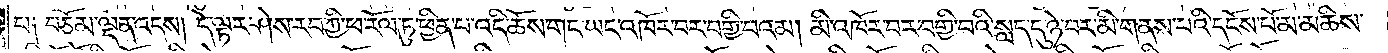པ༑ བཅོམ་ལྡན་འདས། དེ་ལྟར་ཤེས་རབ་ཀྱི་ཕ་རོལ་ཏུ་ཕྱིན་པ་འདི་ཆོས་གང་ཡང་འཁོར་བར་བགྱི་བའམ། མི་འཁོར་བར་བགྱི་བའི་སླད་དུ་ཉེ་བར་མི་གནས་པའི་དངོས་པོ་མ་མཆིས་
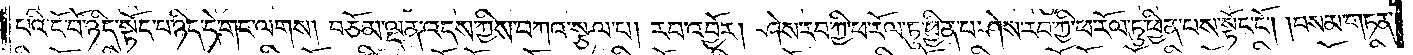པའི་ངོ་བོ་ཉིད་སྟོང་པ་ཉིད་དེ་གང་ལགས། བཅོམ་ལྡན་འདས་ཀྱིས་བཀའ་སྩལ་པ། རབ་འབྱོར། ཤེས་རབ་ཀྱི་ཕ་རོལ་ཏུ་ཕྱིན་པ་ཤེས་རབ་ཀྱི་ཕ་རོལ་ཏུ་ཕྱིན་པས་སྟོང་ངོ༌། །བསམ་གཏན་
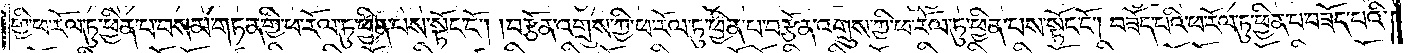གྱི་ཕ་རོལ་ཏུ་ཕྱིན་པ་བསམ་གཏན་གྱི་ཕ་རོལ་ཏུ་ཕྱིན་པས་སྟོང་ངོ༌། །བརྩོན་འགྲུས་ཀྱི་ཕ་རོལ་ཏུ་ཕྱིན་པ་བརྩོན་འགྲུས་ཀྱི་ཕ་རོལ་ཏུ་ཕྱིན་པས་སྟོང་ངོ༌། བཟོད་པའི་ཕ་རོལ་ཏུ་ཕྱིན་པ་བཟོད་པའི་
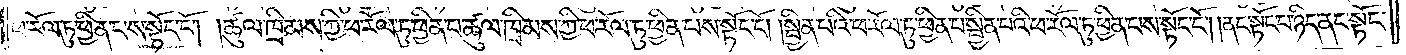ཕ་རོལ་ཏུ་ཕྱིན་པས་སྟོང་ངོ༌། །ཚུལ་ཁྲིམས་ཀྱི་ཕ་རོལ་ཏུ་ཕྱིན་པ་ཚུལ་ཁྲིམས་ཀྱི་ཕ་རོལ་ཏུ་ཕྱིན་པས་སྟོང་ངོ༌། །སྦྱིན་པའི་ཕ་རོལ་ཏུ་ཕྱིན་པ་སྦྱིན་པའི་ཕ་རོལ་ཏུ་ཕྱིན་པས་སྟོང་ངོ༌། །ནང་སྟོང་པ་ཉིད་ནང་སྟོང་
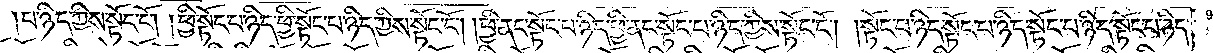པ་ཉིད་ཀྱིས་སྟོང་ངོ༌། །ཕྱི་སྟོང་པ་ཉིད་ཕྱི་སྟོང་པ་ཉིད་ཀྱིས་སྟོང་ངོ༌། །ཕྱི་ནང་སྟོང་པ་ཉིད་ཕྱི་ནང་སྟོང་པ་ཉིད་ཀྱིས་སྟོང་ངོ༌། །སྟོང་པ་ཉིད་སྟོང་པ་ཉིད་སྟོང་པ་ཉིད་སྟོང་པ་ཉིད་
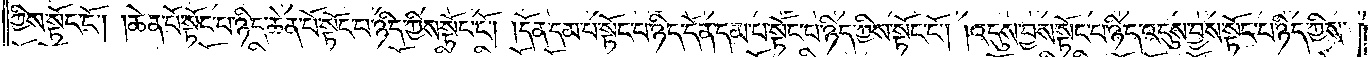ཀྱིས་སྟོང་ངོ༌། །ཆེན་པོ་སྟོང་པ་ཉིད་ཆེན་པོ་སྟོང་པ་ཉིད་ཀྱིས་སྟོང་ངོ༌། །དོན་དམ་པ་སྟོང་པ་ཉིད་དོན་དམ་པ་སྟོང་པ་ཉིད་ཀྱིས་སྟོང་ངོ༌། །འདུས་བྱས་སྟོང་པ་ཉིད་འདུས་བྱས་སྟོང་པ་ཉིད་ཀྱིས་
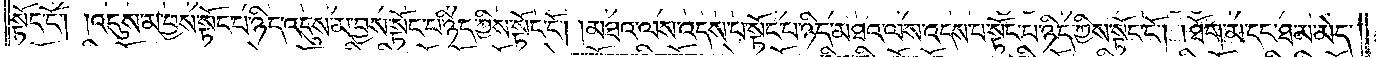སྟོང་ངོ༌། །འདུས་མ་བྱས་སྟོང་པ་ཉིད་འདུས་མ་བྱས་སྟོང་པ་ཉིད་ཀྱིས་སྟོང་ངོ༌། །མཐའ་ལས་འདས་པ་སྟོང་པ་ཉིད་མཐའ་ལས་འདས་པ་སྟོང་པ་ཉིད་ཀྱིས་སྟོང་ངོ༌། །ཐོག་མ་དང་ཐ་མ་མེད་
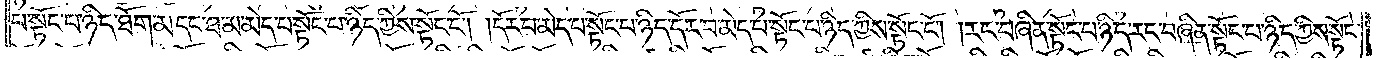པ་སྟོང་པ་ཉིད་ཐོག་མ་དང་ཐ་མ་མེད་པ་སྟོང་པ་ཉིད་ཀྱིས་སྟོང་ངོ༌། །དོར་བ་མེད་པ་སྟོང་པ་ཉིད་དོར་བ་མེད་པ་སྟོང་པ་ཉིད་ཀྱིས་སྟོང་ངོ༌། །རང་བཞིན་སྟོང་པ་ཉིད་རང་བཞིན་སྟོང་པ་ཉིད་ཀྱིས་སྟོང་
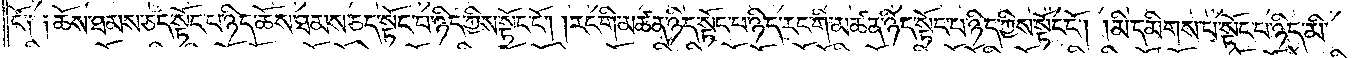ངོ༑ ༑ཆོས་ཐམས་ཅད་སྟོང་པ་ཉིད་ཆོས་ཐམས་ཅད་སྟོང་པ་ཉིད་ཀྱིས་སྟོང་ངོ༌། །རང་གི་མཚན་ཉིད་སྟོང་པ་ཉིད་རང་གི་མཚན་ཉིད་སྟོང་པ་ཉིད་ཀྱིས་སྟོང་ངོ༌། །མི་དམིགས་པ་སྟོང་པ་ཉིད་མི་
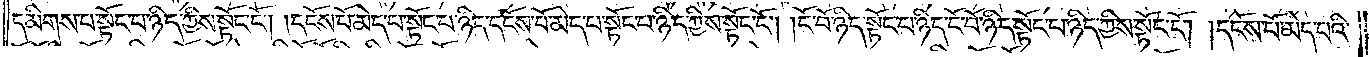དམིགས་པ་སྟོང་པ་ཉིད་ཀྱིས་སྟོང་ངོ༌། །དངོས་པོ་མེད་པ་སྟོང་པ་ཉིད་དངོས་པོ་མེད་པ་སྟོང་པ་ཉིད་ཀྱིས་སྟོང་ངོ༌། །ངོ་བོ་ཉིད་སྟོང་པ་ཉིད་ངོ་བོ་ཉིད་སྟོང་པ་ཉིད་ཀྱིས་སྟོང་ངོ༌། །དངོས་པོ་མེད་པའི་
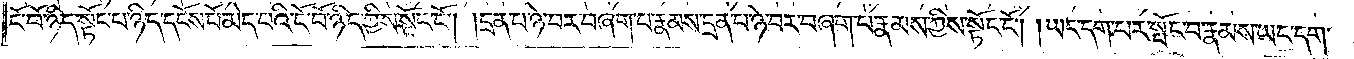ངོ་བོ་ཉིད་སྟོང་པ་ཉིད་དངོས་པོ་མེད་པའི་ངོ་བོ་ཉིད་ཀྱིས་སྟོང་ངོ༌། །དྲན་པ་ཉེ་བར་བཞག་པ་རྣམས་དྲན་པ་ཉེ་བར་བཞག་པ་རྣམས་ཀྱིས་སྟོང་ངོ༌། །ཡང་དག་པར་སྤོང་བ་རྣམས་ཡང་དག་
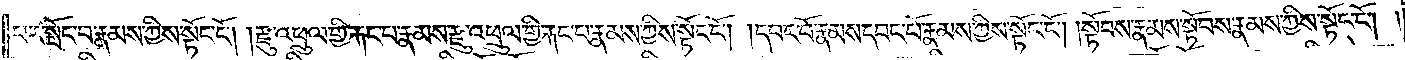པར་སྤོང་བ་རྣམས་ཀྱིས་སྟོང་ངོ༌། །རྫུ་འཕྲུལ་གྱི་རྐང་པ་རྣམས་རྫུ་འཕྲུལ་གྱི་རྐང་པ་རྣམས་ཀྱིས་སྟོང་ངོ༌། །དབང་པོ་རྣམས་དབང་པོ་རྣམས་ཀྱིས་སྟོང་ངོ༌། །སྟོབས་རྣམས་སྟོབས་རྣམས་ཀྱིས་སྟོང་ངོ༌། །
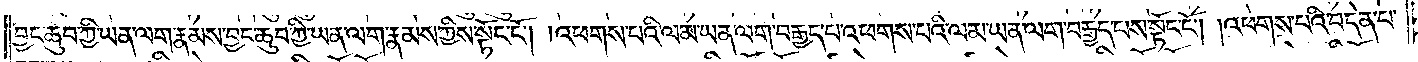བྱང་ཆུབ་ཀྱི་ཡན་ལག་རྣམས་བྱང་ཆུབ་ཀྱི་ཡན་ལག་རྣམས་ཀྱིས་སྟོང་ངོ༌། །འཕགས་པའི་ལམ་ཡན་ལག་བརྒྱད་པ་འཕགས་པའི་ལམ་ཡན་ལག་བརྒྱད་པས་སྟོང་ངོ༌། །འཕགས་པའི་བདེན་པ་
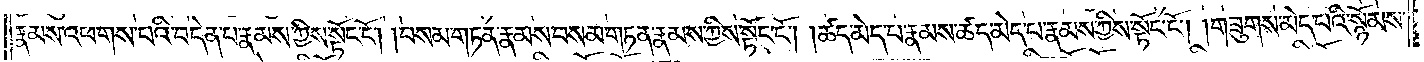རྣམས་འཕགས་པའི་བདེན་པ་རྣམས་ཀྱིས་སྟོང་ངོ༌། །བསམ་གཏན་རྣམས་བསམ་གཏན་རྣམས་ཀྱིས་སྟོང་ངོ༌། །ཚད་མེད་པ་རྣམས་ཚད་མེད་པ་རྣམས་ཀྱིས་སྟོང་ངོ༌། །གཟུགས་མེད་པའི་སྙོམས་
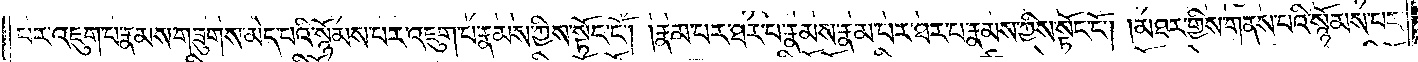པར་འཇུག་པ་རྣམས་གཟུགས་མེད་པའི་སྙོམས་པར་འཇུག་པ་རྣམས་ཀྱིས་སྟོང་ངོ༌། །རྣམ་པར་ཐར་པ་རྣམས་རྣམ་པར་ཐར་པ་རྣམས་ཀྱིས་སྟོང་ངོ༌། །མཐར་གྱིས་གནས་པའི་སྙོམས་པར་
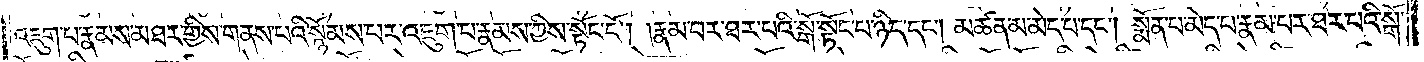འཇུག་པ་རྣམས་མཐར་གྱིས་གནས་པའི་སྙོམས་པར་འཇུག་པ་རྣམས་ཀྱིས་སྟོང་ངོ༌། །རྣམ་པར་ཐར་པའི་སྒོ་སྟོང་པ་ཉིད་དང༌། མཚན་མ་མེད་པ་དང༌། སྨོན་པ་མེད་པ་རྣམ་པར་ཐར་པའི་སྒོ་
